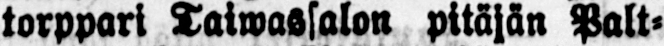torppari Taiwassalon pitäjän Palt-
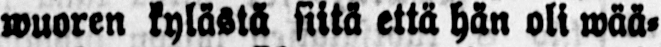wuoren kylästä siitä että hän oli wää-
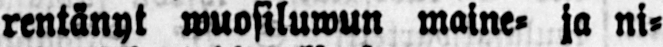rentänyt wuosiluwun maine- ja ni-
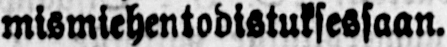mismiehentodistuksessaan.
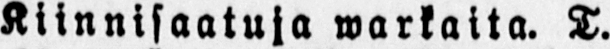Kiinnisaatuja warkaita. T.
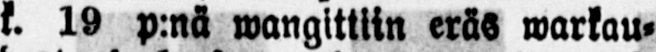k. 19 p:nä wangittiin eräs warkau-
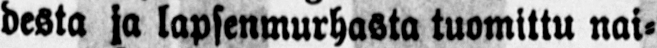desta ja lapsenmurhasta tuomittu nai-
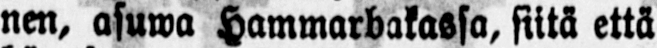nen, asuwa Hammarbakassa, siitä että
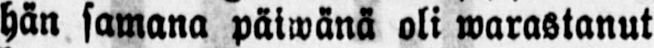hän samana päiwänä oli warastanut
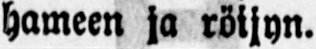hameen ja röijyn.
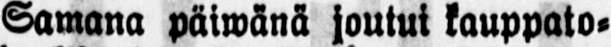Samana päiwänä joutui kauppato-
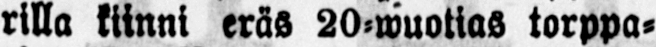rilla kiinni eräs 20-wuotias torppa-
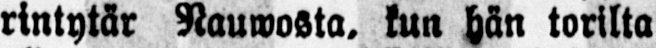rintytär Nauwosta, kun hän torilta
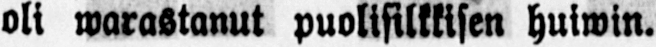oli warastanut puolisilkkisen huiwin.
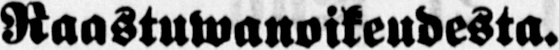Raastuwanoikeudesta.
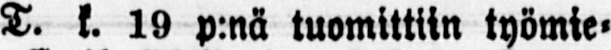T. k. 19 p:nä tuomittiin työmie-
